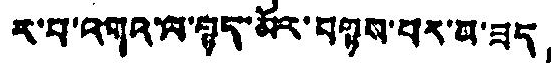ར་བ་འགའ་ལ་ལྷད་མོར་བཉས་པར་མ་ཟད，
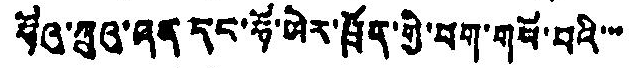ཧོའུ་ཀྲུའུ་ཞན དང་ཧོ་ཡེར་ཁྲོག་གྱི་བག་གསོ་བའི་་་
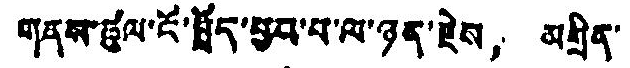གནས་ཚུལ་ངོ་སྤྲོད་བྱབ་པ་ལ་ཉན་རྗེས， མགྲིན་
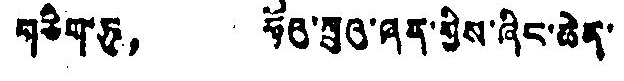གཅིག་ཏུ， ཧོའུ་ཀྲུའུ་ཞན་གྱིས་ཞིང་ཆེན་
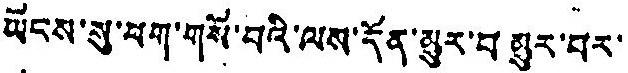ཡོངས་སུ་ཕག་གསོ་བའི་ལས་དོན་མྱུར་བ་མྱུར་བར་
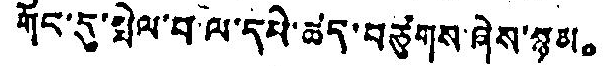གོང་དུ་སྤེལ་བ་ལ་དམེ་ཚད་བཙུགས་ཞེས་སྙམ。
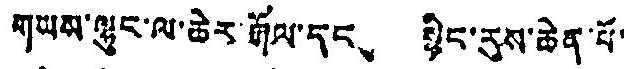གཡས་ལྷུང་ལ་ཆེར་རྒོལ་དང、 སྙིང་རུས་ཆེན་པོ་
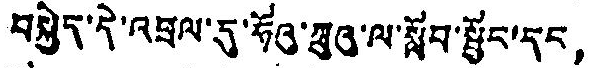བསྐྱེད་དེ་འབྲལ་དུ་ཧོའུ་ཀྲུའུ་ལ་སློབ་སྦྱོང་དང，
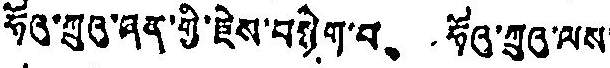ཧོའུ་ཀྲུའུ་ཞན་གྱི་རྗེས་བསྙེག་པ、 ཧོའུ་ཀྲུའུ་ལས་
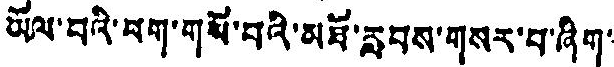ཡོལ་བའི་ཕག་གསོ་བའི་མཐོ་རླབས་གསར་བ་ཞིག་
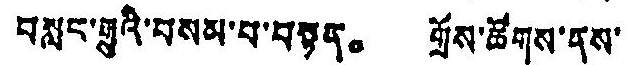བསླང་རྒྱུའི་བསམ་པ་བསྟན。 གྲོས་ཚོགས་ནས་
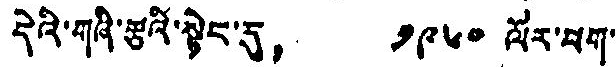དེའི་གཞི་རྩའི་སྟེང་དུ， ༡༩༦༠ ལོར་ཕག་
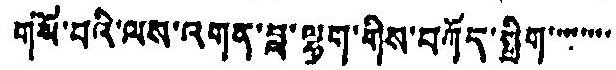གསོ་བའི་ལས་འགན་བླ་ལྷག་གིས་བཀོད་སྒྲིག་་་་་་་
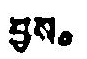བྱས。
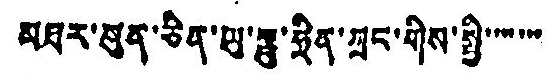མཐར་སུན་ཅིན་ཡུ་ཧྥུ་ཧྲིན་ཀྲང་གིས་སྤྱི་་་་་་་་
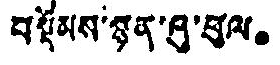བསྡོམས་སྙན་ཞུ་ཕུལ。
